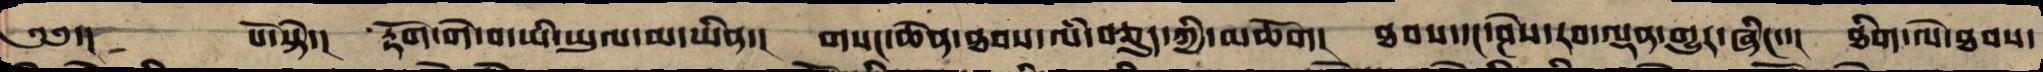༄༅་།  པོ་སྟེ་། རྟོག་གེ་བ་ཡི་ཡུལ་མ་ཡིན་། གསང་ཆེན་ཐབས་ལཾ་བཅུད་ཀྱི་མཆོག། ཐབས་དང་ཤེས་རབ་ལྡན་གྱུར་ཞིང་་། ཐིག་ལེ་ཐབས་
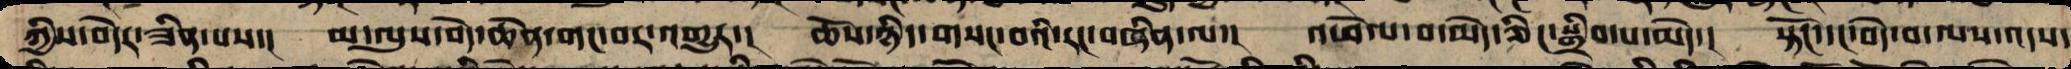ཀྱིས་བདེར་ཟིན་པས་། མ་ལུས་བདེ་ཆེན་གང་བར་འགྱུར་། ཆོས་ཉིད་གསང་བའི་རང་བཞིན་ལ་། འཕེལ་བ་མེད་ཅིང་འགྲིབ་པ་མེད་། སྟོང་དང་བདེ་བ་ལས་འདས་
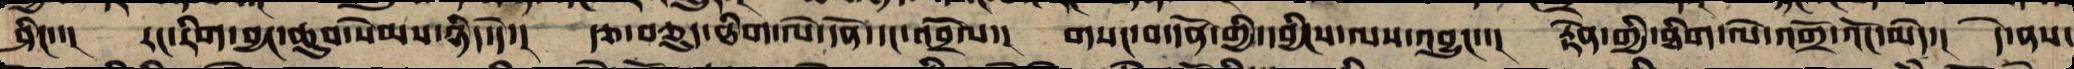ཤིང་་། རང་རིག་བྱང་ཆུབ་སེམས་ཉིད་དེ་། རྩ་བཅུད་ཐིག་ལེ་དོན་དང་འབྲེལ་། གསང་བ་དོན་གྱི་དབྱིངས་ལས་འབྱུང་་། རྟེན་གྱི་ཐིག་ལེ་འགྲོ་འོང་མེད་། དེས་ནས་
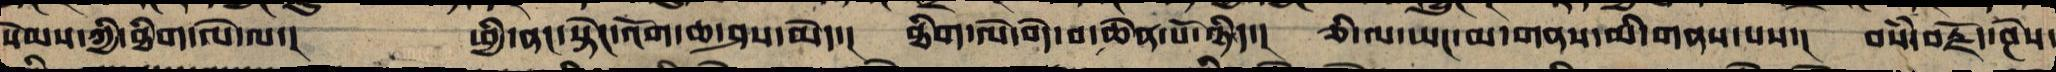སེམས་ཀྱི་ཐིག་ལེ་ལ་། ཕྱི་ནང་སྟེང་འོག་ཆ་ཤས་མེད་། ཐིག་ལེ་བདེ་བ་ཆེན་པོ་ཉིད་། ཅི་ལ་ཡང་མ་གནས་མི་གནས་པས་། བསཾ་བརྗོད་ཤེས་
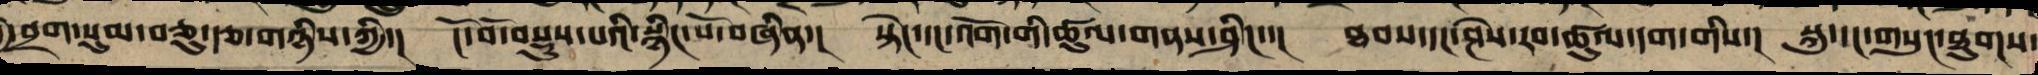བྱེ་བྲག་སུམ་ཅུ་རྩ་གཉིས་ཀྱི་། ངོ་བོ་བསྡུས་པའི་སྙིང་པོ་བཞིན་། སྟེང་དང་འོག་གི་ཚུལ་གནས་ཤིང་་། ཐབས་དང་ཤེས་རབ་ཚུལ་དག་གིས་། སྐུ་དང་གསུང་ཐུགས་
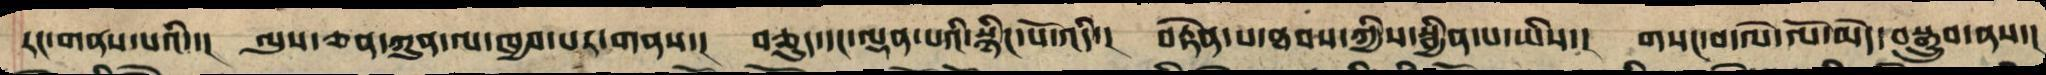རང་གནས་པའི་། ལུས་ཅན་ཀུན་ལ་ཁྱབ་པར་གནས་། བཅུད་དང་ལྡན་པའི་སྙིང་པོ་འདི་། བརྟེན་པ་ཐབས་ཀྱི་སྦྱིན་པ་ཡིས་། གསང་བ་ལེ་ལོ་མེད་བསྒྲུབས་ན་།
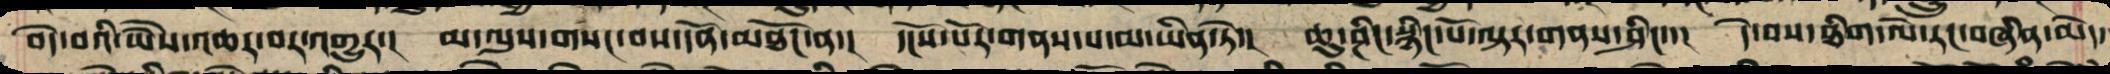བདེ་བའི་ཡཻས་འཆར་བར་འགྱུར་། མ་ལུས་གསང་བས་དོན་མཐོང་ན་། དངོས་པོར་གནས་པ་མ་ཡིན་ཏེ་། ཆུ་ཤིང་སྙིང་པོ་ལྟར་གནས་ཤིང་་། དེ་བས་ཐིག་ལེ་རང་བཞིན་མེད་
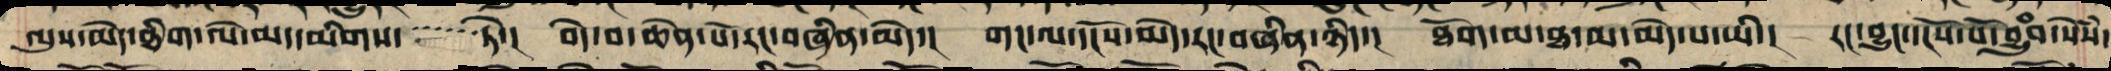ལུས་མེད་ཐིག་ལེ་མ་དམིགས་ཏེ་། བདེ་བ་ཆེན་པོ་རང་བཞིན་མེད་། གང་ལ་དངོས་མེད་དེ་བཞིན་ཉིད་། ཐོག་མ་ཐ་མ་མེད་པ་ཡི་། རང་བྱུང་དངོས་པོ་བྱུཾབ་སེཾས་
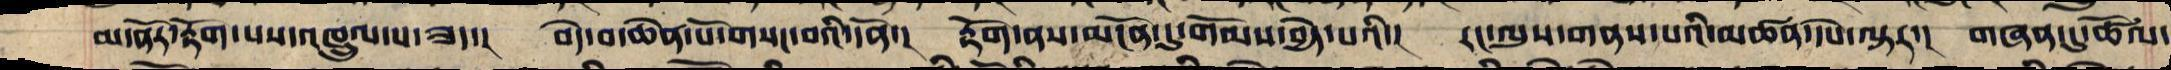མ་ནོར་རྟོག་པས་འཁྲུལ་པ་ཟད་། བདེ་བ་ཆེན་པོ་གསང་བའི་དོན་། རྟོག་ནས་མངོན་དུ་གོམས་བྱེད་པའི་། རང་ལུས་གནས་པའི་མཚན་དཔེ་ལྟར་། གཞན་དུ་ཚོལ་
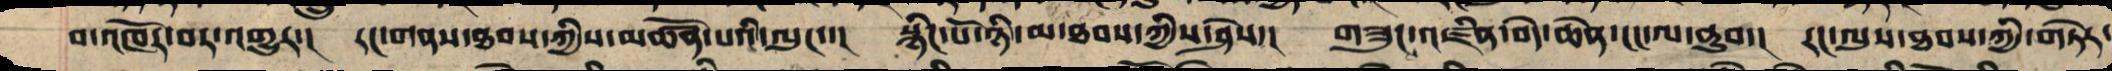བ་འཁོར་བར་འགྱུར་། རང་གནས་ཐབས་ཀྱིས་མཚོན་པའི་ལུང་་། སྙིང་པོ་ཉི་མ་ཐབས་ཀྱིས་ཤེས་། གཟུང་འཛིན་བདེ་ཆེན་ངང་ལ་ནུབ་། རང་ལུས་ཐབས་ཀྱི་གཏེར་
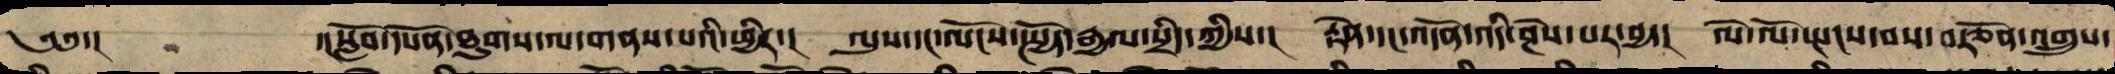༄༅་། ་།སློབ་དཔོན་ཐུགས་ལ་གནས་པའི་ཕྱིར་། ལུས་དང་ལོངས་སྤྱོད་རྒྱལ་སྲིད་ཀྱིས་། རྟེན་དང་དོན་འདི་ཤེས་པར་བྱ་། ལེ་ལོ་སྤངས་པའི་བརྩོན་འགྲུས་
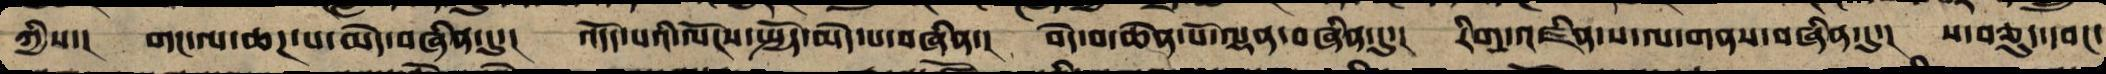ཀྱིས་། གང་ལ་ཆཌ་པ་མེད་བཞིན་དུ་། འདོད་པའི་ལོངས་སྤྱོད་མེད་པ་བཞིན་། བདེ་བ་ཆེན་པོ་ལྡན་བཞིན་དུ་། རིག་འཛིན་ས་ལ་གནས་བཞིན་དུ་། ས་བཅུ་དབང་
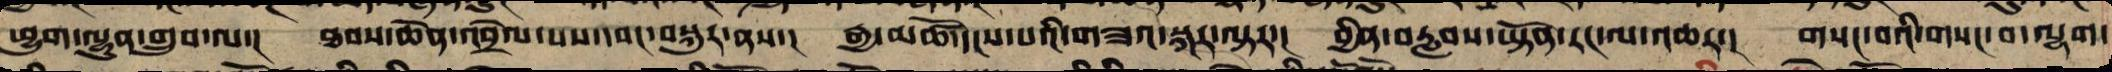ཕྱུག་ལྷུན་གྲུབ་ལ་། ཐབས་ཆེན་འབྲེལ་པར་དབང་བསྐུར་ན་། རྒྱ་མཚོ་དངས་པའི་གཟའ་སྐར་ལྟར་། བྱིན་བརླབས་ཡོན་ཏན་རང་ལ་འཆར་། གསང་བའི་གསང་བ་ལྷག་
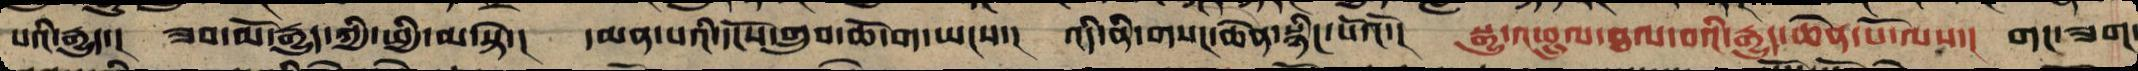པའི་རྒྱུད་། ཟབ་མོ་རྒྱུད་ཀྱི་ཕྱི་མ་སྟེ་། དམན་པའི་དངོས་གྲུབ་ཆོ་ག་ཡངས་། འདི་ནི་གསང་ཆེན་སྙིང་པོའོ་། སྒྱུ་འཕྲུལ་ཐལ་བའི་རྒྱུད་ཆེན་པོ་ལས་། གང་ཟག་
